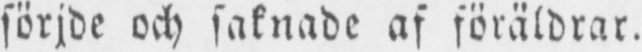sörjde och saknade af föräldrar.
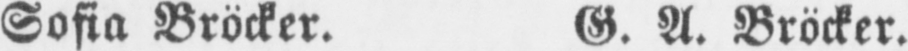Sofia Bröcker. G. A. Bröcker.
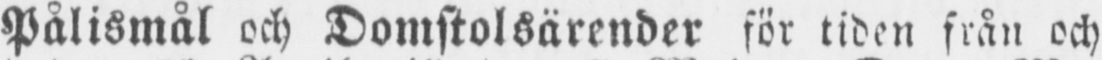Pålismål och Domstolsärender för tiden från och
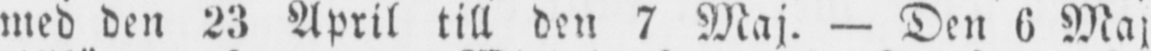med den 23 April till den 7 Maj. — Den 6 Maj
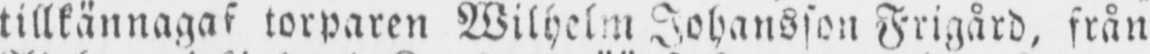tillkännagaf torparen Wilhelm Johansson Frigård, från
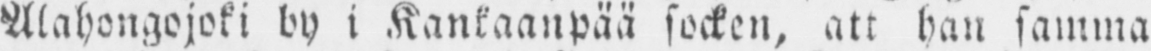Alahongojoki by i Kankaanpää socken, att han samma
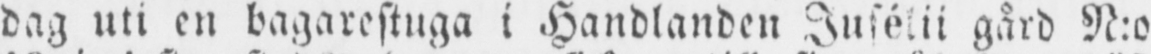dag uti en bagarestuga i Handlanden Jusélii gård N:o
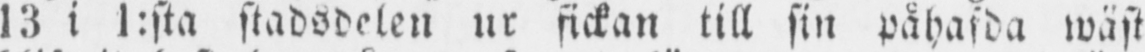13 i 1:sta stadsdelen ur fickan till sin påhafda wäst
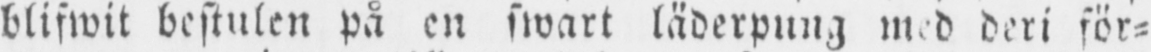blifwit bestulen på en swart läderpung med deri för-
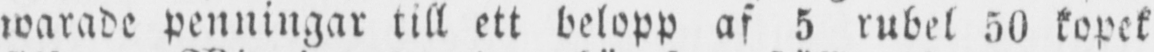warade penningar till ett belopp af 5 rubel 50 kopek
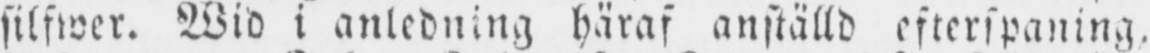silfwer. Wid i anledning häraf anställd efterspaning,
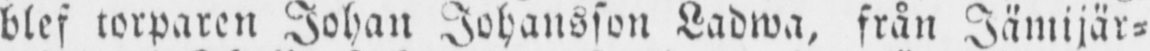blef torparen Johan Johansson Ladwa, från Jämijär-
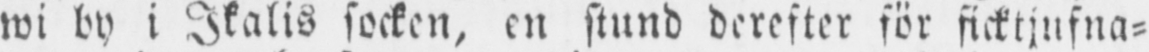wi by i Ikalis socken, en stund derefter för ficktjufna-
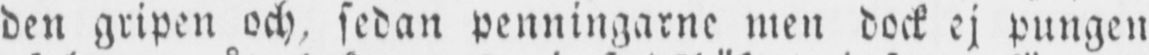den gripen och, sedan penningarne men dock ej pungen
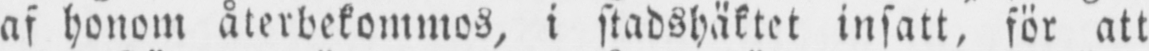af honom återbekommos, i stadshäktet insatt, för att
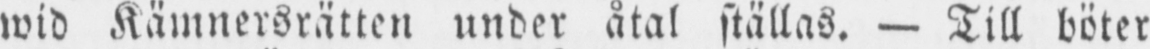wid Kämnersrätten under åtal ställas. — Till böter
